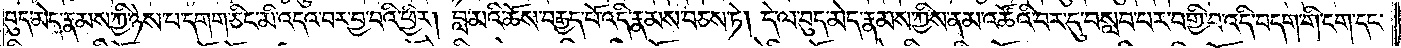བུད་མེད་རྣམས་ཀྱི་ཉེས་པ་དགག་ཅིང་མི་འདའ་བར་བྱ་བའི་ཕྱིར། བླ་མའི་ཆོས་བརྒྱད་པོ་འདི་རྣམས་བཅས་ཏེ། དེ་ལ་བུད་མེད་རྣམས་ཀྱིས་ནམ་འཚོའི་བར་དུ་བསླབ་པར་བགྱི་བ་འདི་བདག་གི་ངག་དང་
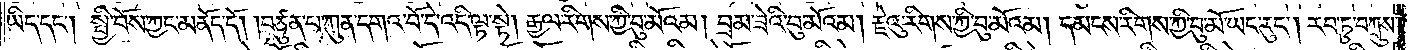ཡིད་དང༌། སྤྱི་བོས་ཀྱང་མནོད་དོ། །བཙུན་པ་ཀུན་དགའ་བོ་དེ་འདི་ལྟ་སྟེ། རྒྱལ་རིགས་ཀྱི་བུ་མོའམ། བྲམ་ཟེའི་བུ་མོའམ། རྗེའུ་རིགས་ཀྱི་བུ་མོའམ། དམངས་རིགས་ཀྱི་བུ་མོ་ཡང་རུང༌། རབ་ཏུ་བཀྲུས་
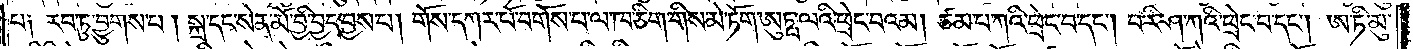པ༑ རབ་ཏུ་བྱུགས་པ། སྐྲ་དང་སེན་མོ་བྱི་བྱད་བྱས་པ། གོས་དཀར་པོ་བགོས་པ་ལ་ཁ་ཅིག་གིས་མེ་ཏོག་ཨུཏྤ་ལའི་ཕྲེང་བའམ། ཙམ་པ་ཀའི་ཕྲེང་བ་དང༌། བ་རི་ཤ་ཀའི་ཕྲེང་བ་དང༌། ཨ་ཏི་མུ་
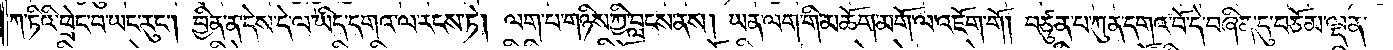ཀ་ཏིའི་ཕྲེང་བ་ཡང་རུང༌། བྱིན་ན་དེས་དེ་ལ་ཡིད་དགའ་ལ་རངས་ཏེ། ལག་པ་གཉིས་ཀྱི་བླངས་ནས། ཡན་ལག་གི་མཆོག་མགོ་ལ་འཇོག་གོ། བཙུན་པ་ཀུན་དགའ་བོ་དེ་བཞིན་དུ་བཅོམ་ལྡན་
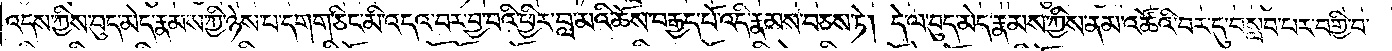འདས་ཀྱིས་བུད་མེད་རྣམས་ཀྱི་ཉེས་པ་དགག་ཅིང་མི་འདའ་བར་བྱ་བའི་ཕྱིར་བླ་མའི་ཆོས་བརྒྱད་པོ་འདི་རྣམས་བཅས་ཏེ། དེ་ལ་བུད་མེད་རྣམས་ཀྱིས་ནམ་འཚོའི་བར་དུ་བསླབ་པར་བགྱི་བ་
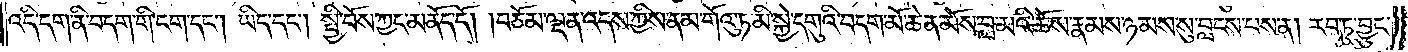འདི་དག་ནི་བདག་གི་ངག་དང༌། ཡིད་དང༌། སྤྱི་བོས་ཀྱང་མནོད་དོ། །བཅོམ་ལྡན་འདས་ཀྱིས་ནམ་གོའུ་ཏ་མི་སྐྱེ་དགུའི་བདག་མོ་ཆེན་མོས་བླ་མའི་ཆོས་རྣམས་ཉམས་སུ་བླངས་པས་ན། རབ་ཏུ་བྱུང་
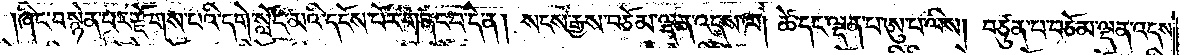ཞིང་བསྙེན་པར་རྫོགས་པའི་དགེ་སློང་མའི་དངོས་པོར་གནང་བ་དེ་ན། སངས་རྒྱས་བཅོམ་ལྡན་འདས་ལ། ཚེ་དང་ལྡན་པ་ཨུ་པ་ལིས། བཙུན་པ་བཅོམ་ལྡན་འདས་
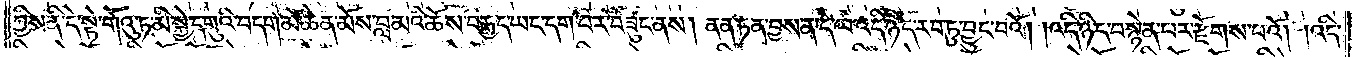ཀྱིས་ནི་དེ་སྟེ་གོའུ་ཏ་མི་སྐྱེ་དགུའི་བདག་མོ་ཆེན་མོས་བླ་མའི་ཆོས་བརྒྱད་ཡང་དག་པར་བཟུང་ནས། ནན་ཏན་བྱས་ན་དེ་ལ་འདི་ཉིད་རབ་ཏུ་བྱུང་བའོ། །འདི་ཉིད་བསྙེན་པར་རྫོགས་པའོ། །འདི་
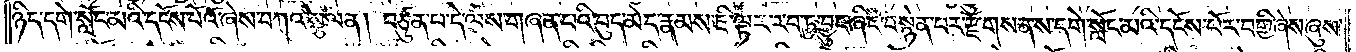ཉིད་དགེ་སློང་མའི་དངོས་པོའོ་ཞེས་བཀའ་སྩལ་ན། བཙུན་པ་དེ་ལས་གཞན་པའི་བུད་མེད་རྣམས་ཇི་ལྟར་རབ་ཏུ་བྱུང་ཞིང་བསྙེན་པར་རྫོགས་ནས་དགེ་སློང་མའི་དངོས་པོར་བགྱི་ཞེས་ཞུས་
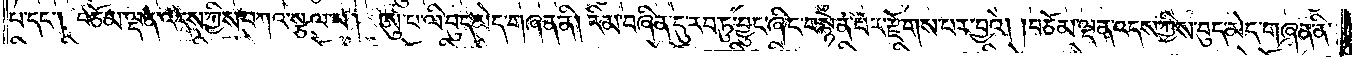པ་དང༌། བཅོམ་ལྡན་འདས་ཀྱིས་བཀའ་སྩལ་པ། ཨུ་པ་ལི་བུད་མེད་གཞན་ནི། རིམ་བཞིན་དུ་རབ་ཏུ་བྱུང་ཞིང་བསྙེན་པར་རྫོགས་པར་བྱའོ། །བཅོམ་ལྡན་འདས་ཀྱིས་བུད་མེད་གཞན་ནི་
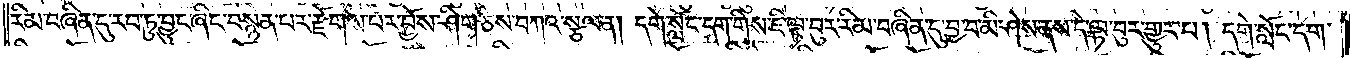རིམ་བཞིན་དུ་རབ་ཏུ་བྱུང་ཞིང་བསྙེན་པར་རྫོགས་པར་བྱོས་ཤིག་ཅེས་བཀའ་སྩལ་ན། དགེ་སློང་དག་གིས་ཇི་ལྟ་བུར་རིམ་བཞིན་དུ་བྱ་བ་མི་ཤེས་ནས་དེ་ལྟ་བུར་གྱུར་པ། དགེ་སློང་དག་
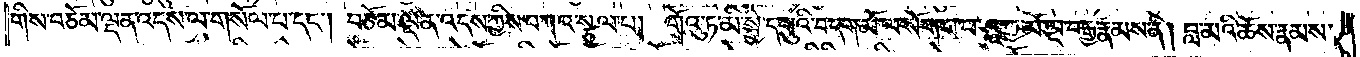གིས་བཅོམ་ལྡན་འདས་ལ་གསོལ་པ་དང༌། བཅོམ་ལྡན་འདས་ཀྱིས་བཀའ་སྩལ་པ། གོའུ་ཏ་མི་སྐྱེ་དགུའི་བདག་མོ་ལ་སོགས་པ་ཤཱཀྱ་མོ་ལྔ་བརྒྱ་རྣམས་ནི། བླ་མའི་ཆོས་རྣམས་
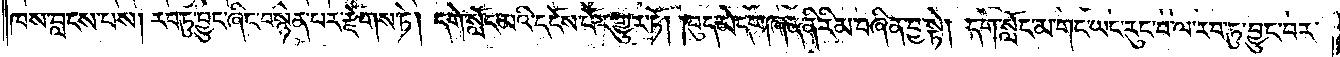ཁས་བླངས་པས། རབ་ཏུ་བྱུང་ཞིང་བསྙེན་པར་རྫོགས་ཏེ། དགེ་སློང་མའི་དངོས་པོར་གྱུར་ཏོ། །བུད་མེད་གཞན་ནི་རིམ་བཞིན་བྱ་སྟེ། དགེ་སློང་མ་གང་ཡང་རུང་བ་ལ་རབ་ཏུ་བྱུང་བར་
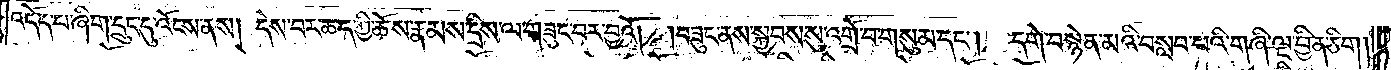འདོད་པ་ཞིག་དྲུང་དུ་འོངས་ནས། དེས་བར་ཆད་ཀྱི་ཆོས་རྣམས་དྲིས་ལ་གཟུང་བར་བྱའོ། །བཟུང་ནས་སྐྱབས་སུ་འགྲོ་བ་གསུམ་དང༌། དགེ་བསྙེན་མའི་བསླབ་པའི་གཞི་ལྔ་བྱིན་ཅིག །
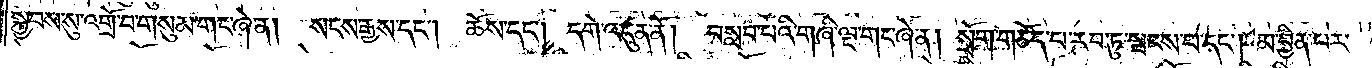སྐྱབས་སུ་འགྲོ་བ་གསུམ་གང་ཞེ་ན། སངས་རྒྱས་དང༌། ཆོས་དང༌། དགེ་འདུན་ནོ། བསླབ་པའི་གཞི་ལྔ་གང་ཞེ་ན། སྲོག་གཅོད་པ་རབ་ཏུ་སྤངས་པ་དང༌། མ་བྱིན་པར་
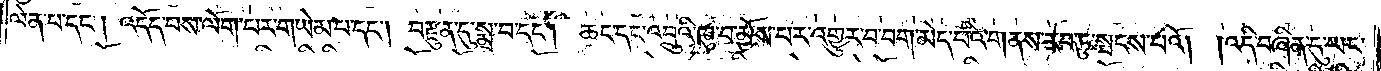ལེན་པ་དང༌། འདོད་པས་ལོག་པར་གཡེམ་པ་དང༌། བརྫུན་དུ་སྨྲ་བ་དང༌། ཆང་དང་འབྲུའི་ཁུ་བ་མྱོས་པར་འགྱུར་བ་བག་མེད་པའི་གནས་རབ་ཏུ་སྤངས་པའོ། །འདི་བཞིན་དུ་ཡང་
